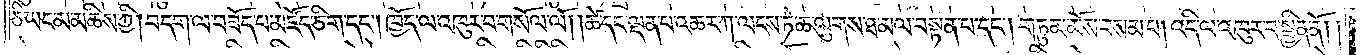ཅི་ཡང་མ་མཆིས་ཀྱི། བདག་ལ་བཟོད་པ་མཛོད་ཅིག་དང༌། ཁྱོད་ལ་འཁུར་བ་གསོལ་ལོ། །ཚེ་དང་ལྡན་པ་འཆར་ཀ་ལངས་ཏེ་ཆ་ལུགས་ཐ་མལ་བསྟན་པ་དང༌། གཏུམ་མོས་བསམ་པ། འདི་ལ་འཁུར་བ་སྦྱིན་ནོ། །
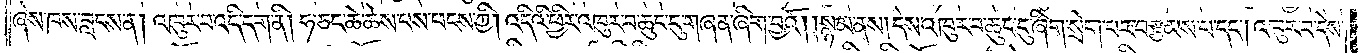ཞེས་ཁས་བླངས་ན། འཁུར་བ་འདི་དག་ནི། ཧ་ཅང་ཆེ་ཆེས་བས་ཕངས་ཀྱི། འདིའི་ཕྱིར་འཁུར་བ་ཆུང་ངུ་གཞན་ཞིག་བྱའོ། །སྙམ་ནས། དེས་འཁུར་བ་ཆུང་ངུ་ཞིག་སྲེག་པར་བརྩམས་པ་དང༌། འཁུར་བ་དེས་
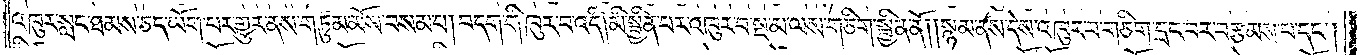འཁུར་སླང་ཐམས་ཅད་ཡོག་པར་གྱུར་ནས་གཏུམ་མོས་བསམ་པ། བདག་གི་ཁུར་བ་འདི། མི་སྦྱིན་པར་འཁུར་བ་སྔ་མ་ལས་གཅིག་སྦྱིན་ནོ། །སྙམ་ནས་དེས་འཁུར་བ་གཅིག་དྲང་བར་བརྩམས་པ་དང༌།
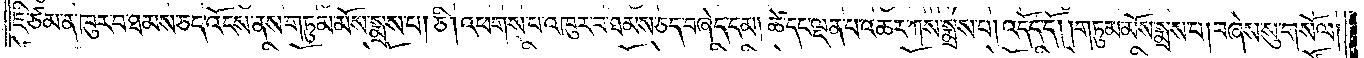ཇི་ཙམ་ན་ཁུར་བ་ཐམས་ཅད་འོངས་ནས་གཏུམ་མོས་སྨྲས་པ། ཅི། འཕགས་པ་འཁུར་བ་ཐམས་ཅད་བཞེད་དམ། ཚེ་དང་ལྡན་པ་འཆར་ཀས་སྨྲས་པ། འདོད་དོ། །གཏུམ་མོས་སྨྲས་པ། བཞེས་སུ་གསོལ།
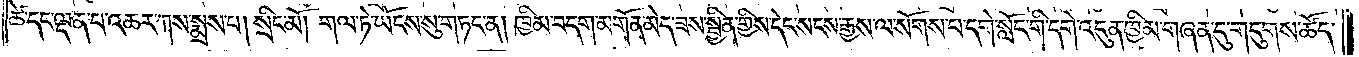ཚེ་དང་ལྡན་པ་འཆར་ཀས་སྨྲས་པ། སྲིང་མོ་དང༌། གལ་ཏེ་ཡོངས་སུ་གཏང་ན། ཁྱིམ་བདག་མགོན་མེད་ཟས་སྦྱིན་གྱི་དེང་སངས་རྒྱས་ལ་སོགས་པ་དགེ་སློང་གི་དགེ་འདུན་ཁྱིམ་གཞན་དུ་གདུགས་ཚོད་
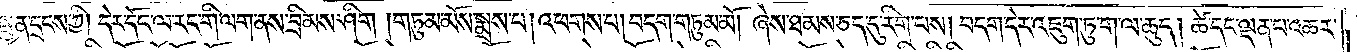སྤྱན་དྲངས་ཀྱི། དེར་དོང་ལ་རང་གི་ལག་ནས་བྲིམས་ཤིག །གཏུམ་མོས་སྨྲས་པ། འཕགས་པ། བདག་གཏུམ་མོ། ཞེས་ཐམས་ཅད་དུ་རིག་པས། བདག་དེར་འཇུག་ཏུ་ག་ལ་ཆུད། ཚེ་དང་ལྡན་པ་འཆར་
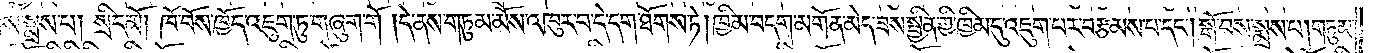ས་སྨྲས་པ། སྲིང་མོ། ཁོ་བོས་ཁྱོད་འཇུག་ཏུ་གཞུག་གོ །དེ་ནས་གཏུམ་མོས་འཁུར་བ་དེ་དག་ཐོགས་ཏེ། ཁྱིམ་བདག་མགོན་མེད་ཟས་སྦྱིན་གྱི་ཁྱིམ་དུ་འཇུག་པར་བརྩམས་པ་དང༌། སྒོ་བས་སྨྲས་པ། གཏུམ་
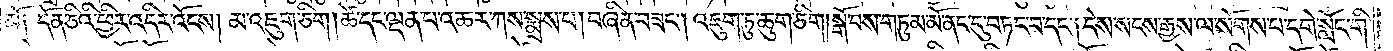མོ། དོན་ཅིའི་ཕྱིར་འདིར་འོངས། མ་འཇུག་ཅིག །ཚེ་དང་ལྡན་པ་འཆར་ཀས་སྨྲས་པ། བཞིན་བཟང༌། འཇུག་ཏུ་ཆུག་ཅིག །སྒོ་བས་གཏུམ་མོ་ནང་དུ་བཏང་བ་དང༌། དེས་སངས་རྒྱས་ལ་སོགས་པ་དགེ་སློང་གི་
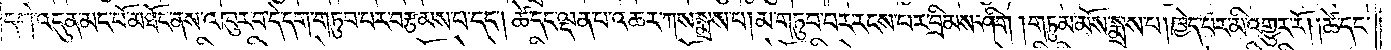དགེ་འདུན་མང་པོ་མཐོང་ནས་འཁུར་བ་དེ་དག་གཏུབ་པར་བརྩམས་པ་དང༌། ཚེ་དང་ལྡན་པ་འཆར་ཀས་སྨྲས་པ། མ་གཏུབ་པར་རངས་པར་བྲིམས་ཤིག །གཏུམ་མོས་སྨྲས་པ། ཁྱེད་པར་མི་འགྱུར་རོ། །ཚེ་དང་
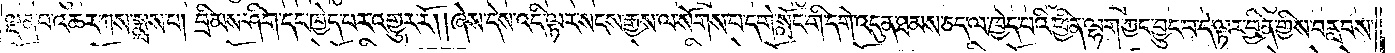ལྡན་པ་འཆར་ཀས་སྨྲས་པ། བྲིམས་ཤིག་དང་ཁྱེད་པར་འགྱུར་རོ། །ཞེས་དེས་འདི་ལྟར་སངས་རྒྱས་ལ་སོགས་པ་དགེ་སློང་གི་དགེ་འདུན་ཐམས་ཅད་ལ་ཁྱེད་པའི་ཕྱིན་ལྷག་ཀྱང་བྱུང་བ་དེ་ལྟར་བྱིན་གྱིས་བརླབས་
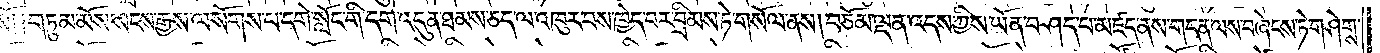སོ། །གཏུམ་མོས་སངས་རྒྱས་ལ་སོགས་པ་དགེ་སློང་གི་དགེ་འདུན་ཐམས་ཅད་ལ་འཁུར་བས་ཁྱེད་པར་བྲིམས་ཏེ་གསོལ་ནས། བཅོམ་ལྡན་འདས་ཀྱིས་ཡོན་བཤད་པ་མཛད་ནས་གདན་ལས་བཞེངས་ཏེ་གཤེགས་
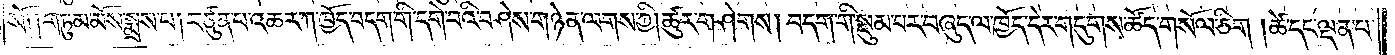སོ༑ ༑གཏུམ་མོས་སྨྲས་པ། བཙུན་པ་འཆར་ཀ་ཁྱོད་བདག་གི་དགེ་བའི་བཤེས་གཉེན་ལགས་ཀྱི་ཚུར་གཤེགས། བདག་གི་སྡུམ་པར་བཞུད་ལ་ཁྱོད་ཀྱི་དེར་གདུག་ཚོད་གསོལ་ཅིག །ཚེ་དང་ལྡན་པ་
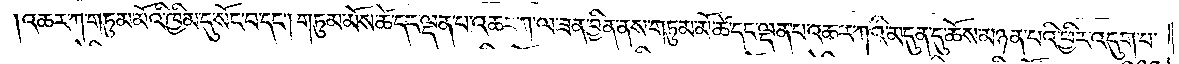འཆར་ཀ་གཏུམ་མོའི་ཁྱིམ་དུ་སོང་བ་དང༌། གཏུམ་མོས་ཚེ་དང་ལྡན་པ་འཆར་ཀ་ལ་ཟན་བྱིན་ནས་གཏུམ་མོ་ཚེ་དང་ལྡན་པ་འཆར་ཀའི་མདུན་དུ་ཆོས་མཉན་པའི་ཕྱིར་འདུག་པ་
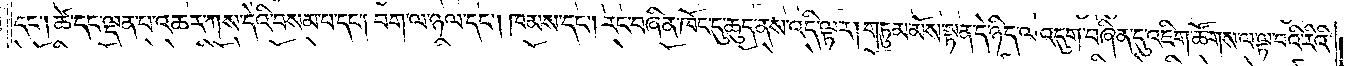དང༌། ཚེ་དང་ལྡན་པ་འཆར་ཀས་དེའི་བསམ་པ་དང༌། བག་ལ་ཉལ་དང༌། ཁམས་དང༌། རང་བཞིན་ཁོང་དུ་ཆུད་ནས་འདི་ལྟར། གཏུམ་མོས་སྟན་དེ་ཉིད་ལ་འདུག་བཞིན་དུ་འཇིག་ཚོགས་ལ་ལྟ་བའི་རིའི་
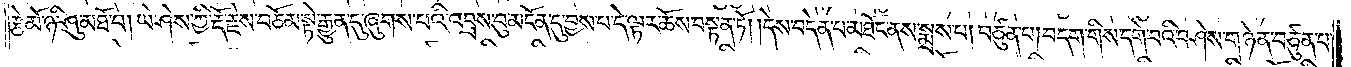རྩེ་མོ་ཉི་ཤུ་མཐོ་བ། ཡེ་ཤེས་ཀྱི་རྡོ་རྗེས་བཅོམ་སྟེ་རྒྱུན་དུ་ཞུགས་པའི་འབྲས་བུ་མངོན་དུ་བྱས་པ་དེ་ལྟར་ཆོས་བསྟན་ཏོ། །དེས་བདེན་པ་མཐོང་ནས་སྨྲས་པ། བཙུན་པ། བདག་གིས་དགེ་བའི་བཤེས་གཉེན་བཙུན་པ་
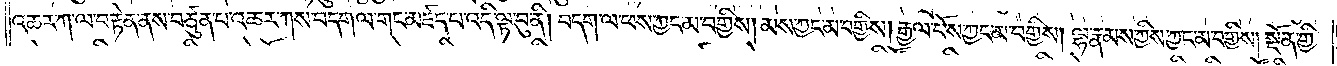འཆར་ཀ་ལ་བརྟེན་ནས་བཙུན་པ་འཆར་ཀས་བདག་ལ་གང་མཛད་པ་འདི་ལྟ་བུ་ནི། བདག་ལ་ཕས་ཀྱང་མ་བགྱིས། མས་ཀྱང་མ་བགྱིས། རྒྱལ་པོས་ཀྱང་མ་བགྱིས། ལྷ་རྣམས་ཀྱིས་ཀྱང་མ་བགྱིས། སྔོན་གྱི་
